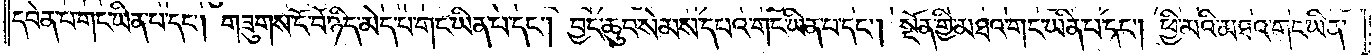དབེན་པ་གང་ཡིན་པ་དང༌། གཟུགས་ངོ་བོ་ཉིད་མེད་པ་གང་ཡིན་པ་དང༌། བྱང་ཆུབ་སེམས་དཔའ་གང་ཡིན་པ་དང༌། སྔོན་གྱི་མཐའ་གང་ཡིན་པ་དང༌། ཕྱི་མའི་མཐའ་གང་ཡིན་
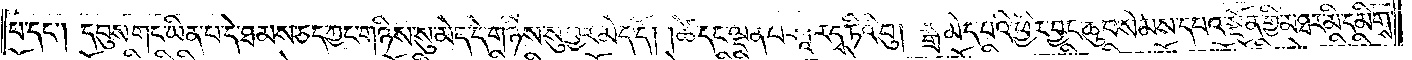པ་དང༌། དབུས་གང་ཡིན་པ་དེ་ཐམས་ཅད་ཀྱང་གཉིས་སུ་མེད་དེ་གཉིས་སུ་བྱར་མེད་དོ། །ཚེ་དང་ལྡན་པ་ཤཱ་རདྭ་ཏིའི་བུ། སྒྲ་མེད་པའི་ཕྱིར་བྱང་ཆུབ་སེམས་དཔའ་སྔོན་གྱི་མཐར་མི་དམིགས་
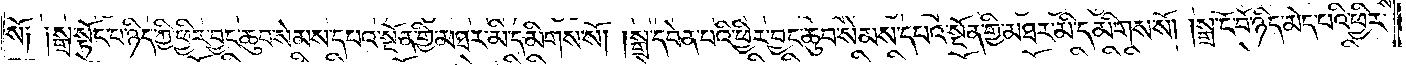སོ། །སྒྲ་སྟོང་པ་ཉིད་ཀྱི་ཕྱིར་བྱང་ཆུབ་སེམས་དཔའ་སྔོན་གྱི་མཐར་མི་དམིགས་སོ། །སྒྲ་དབེན་པའི་ཕྱིར་བྱང་ཆུབ་སེམས་དཔའ་སྔོན་གྱི་མཐར་མི་དམིགས་སོ། །སྒྲ་ངོ་བོ་ཉིད་མེད་པའི་ཕྱིར་
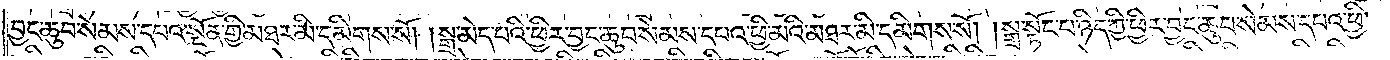བྱང་ཆུབ་སེམས་དཔའ་སྔོན་གྱི་མཐར་མི་དམིགས་སོ། །སྒྲ་མེད་པའི་ཕྱིར་བྱང་ཆུབ་སེམས་དཔའ་ཕྱི་མའི་མཐར་མི་དམིགས་སོ། །སྒྲ་སྟོང་པ་ཉིད་ཀྱི་ཕྱིར་བྱང་ཆུབ་སེམས་དཔའ་ཕྱི་
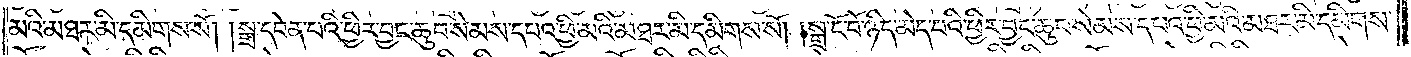མའི་མཐར་མི་དམིགས་སོ། །སྒྲ་དབེན་པའི་ཕྱིར་བྱང་ཆུབ་སེམས་དཔའ་ཕྱི་མའི་མཐར་མི་དམིགས་སོ། །སྒྲ་ངོ་བོ་ཉིད་མེད་པའི་ཕྱིར་བྱང་ཆུབ་སེམས་དཔའ་ཕྱི་མའི་མཐར་མི་དམིགས་
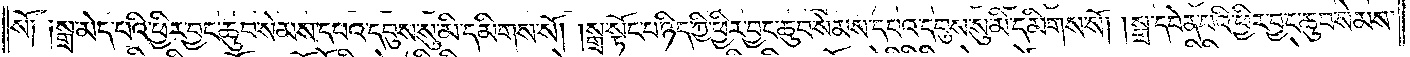སོ། །སྒྲ་མེད་པའི་ཕྱིར་བྱང་ཆུབ་སེམས་དཔའ་དབུས་སུ་མི་དམིགས་སོ། །སྒྲ་སྟོང་པ་ཉིད་ཀྱི་ཕྱིར་བྱང་ཆུབ་སེམས་དཔའ་དབུས་སུ་མི་དམིགས་སོ། །སྒྲ་དབེན་པའི་ཕྱིར་བྱང་ཆུབ་སེམས་
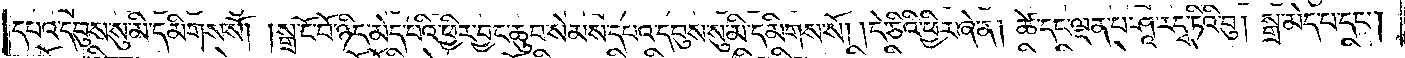དཔའ་དབུས་སུ་མི་དམིགས་སོ། །སྒྲ་ངོ་བོ་ཉིད་མེད་པའི་ཕྱིར་བྱང་ཆུབ་སེམས་དཔའ་དབུས་སུ་མི་དམིགས་སོ། །དེ་ཅིའི་ཕྱིར་ཞེ་ན། ཚེ་དང་ལྡན་པ་ཤཱ་རདྭ་ཏིའི་བུ། སྒྲ་མེད་པ་དང༌།
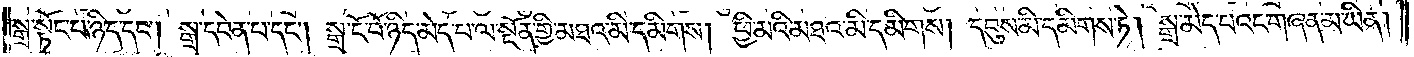སྒྲ་སྟོང་པ་ཉིད་དང༌། སྒྲ་དབེན་པ་དང༌། སྒྲ་ངོ་བོ་ཉིད་མེད་པ་ལ་སྔོན་གྱི་མཐའ་མི་དམིགས། ཕྱི་མའི་མཐའ་མི་དམིགས། དབུས་མི་དམིགས་ཏེ། སྒྲ་མེད་པའང་གཞན་མ་ཡིན།
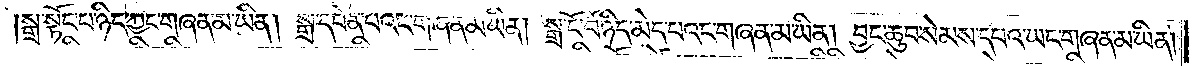སྒྲ་སྟོང་པ་ཉིད་ཀྱང་གཞན་མ་ཡིན། སྒྲ་དབེན་པའང་གཞན་མ་ཡིན། སྒྲ་ངོ་བོ་ཉིད་མེད་པའང་གཞན་མ་ཡིན། བྱང་ཆུབ་སེམས་དཔའ་ཡང་གཞན་མ་ཡིན།
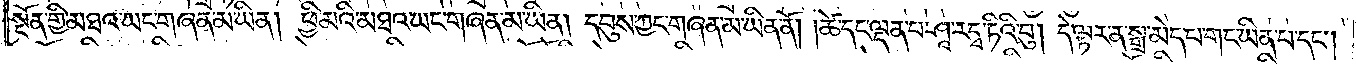སྔོན་གྱི་མཐའ་ཡང་གཞན་མ་ཡིན། ཕྱི་མའི་མཐའ་ཡང་གཞན་མ་ཡིན། དབུས་ཀྱང་གཞན་མ་ཡིན་ནོ། །ཚེ་དང་ལྡན་པ་ཤཱ་རདྭ་ཏིའི་བུ། དེ་ལྟར་ན་སྒྲ་མེད་པ་གང་ཡིན་པ་དང༌།
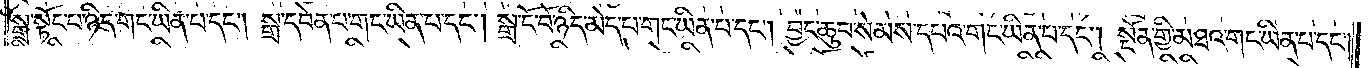སྒྲ་སྟོང་པ་ཉིད་གང་ཡིན་པ་དང༌། སྒྲ་དབེན་པ་གང་ཡིན་པ་དང༌། སྒྲ་ངོ་བོ་ཉིད་མེད་པ་གང་ཡིན་པ་དང༌། བྱང་ཆུབ་སེམས་དཔའ་གང་ཡིན་པ་དང༌། སྔོན་གྱི་མཐའ་གང་ཡིན་པ་དང༌།
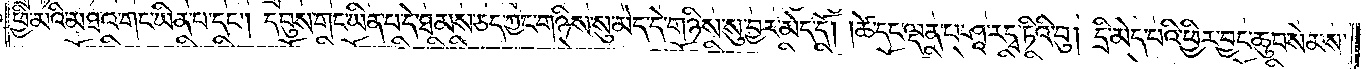ཕྱི་མའི་མཐའ་གང་ཡིན་པ་དང༌། དབུས་གང་ཡིན་པ་དེ་ཐམས་ཅད་ཀྱང་གཉིས་སུ་མེད་དེ་གཉིས་སུ་བྱར་མེད་དོ། །ཚེ་དང་ལྡན་པ་ཤཱ་རདྭ་ཏིའི་བུ། དྲི་མེད་པའི་ཕྱིར་བྱང་ཆུབ་སེམས་
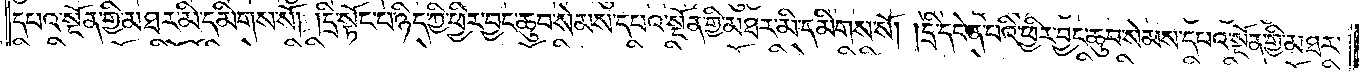དཔའ་སྔོན་གྱི་མཐར་མི་དམིགས་སོ། །དྲི་སྟོང་པ་ཉིད་ཀྱི་ཕྱིར་བྱང་ཆུབ་སེམས་དཔའ་སྔོན་གྱི་མཐར་མི་དམིགས་སོ། །དྲི་དབེན་པའི་ཕྱིར་བྱང་ཆུབ་སེམས་དཔའ་སྔོན་གྱི་མཐར་
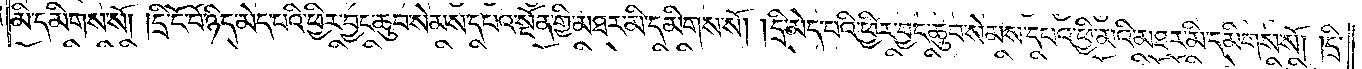མི་དམིགས་སོ། །དྲི་ངོ་བོ་ཉིད་མེད་པའི་ཕྱིར་བྱང་ཆུབ་སེམས་དཔའ་སྔོན་གྱི་མཐར་མི་དམིགས་སོ། །དྲི་མེད་པའི་ཕྱིར་བྱང་ཆུབ་སེམས་དཔའ་ཕྱི་མའི་མཐར་མི་དམིགས་སོ། །དྲི་
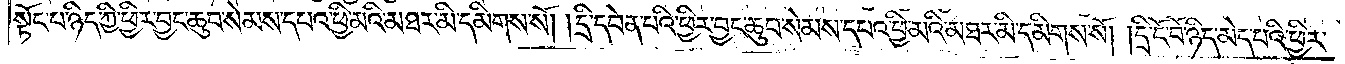སྟོང་པ་ཉིད་ཀྱི་ཕྱིར་བྱང་ཆུབ་སེམས་དཔའ་ཕྱི་མའི་མཐར་མི་དམིགས་སོ། །དྲི་དབེན་པའི་ཕྱིར་བྱང་ཆུབ་སེམས་དཔའ་ཕྱི་མའི་མཐར་མི་དམིགས་སོ། །དྲི་ངོ་བོ་ཉིད་མེད་པའི་ཕྱིར་
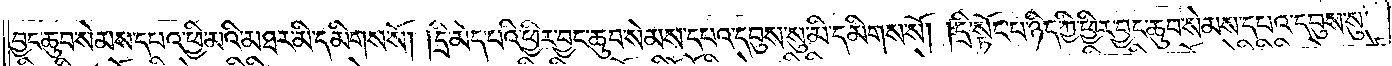བྱང་ཆུབ་སེམས་དཔའ་ཕྱི་མའི་མཐར་མི་དམིགས་སོ། །དྲི་མེད་པའི་ཕྱིར་བྱང་ཆུབ་སེམས་དཔའ་དབུས་སུ་མི་དམིགས་སོ། །དྲི་སྟོང་པ་ཉིད་ཀྱི་ཕྱིར་བྱང་ཆུབ་སེམས་དཔའ་དབུས་སུ་
